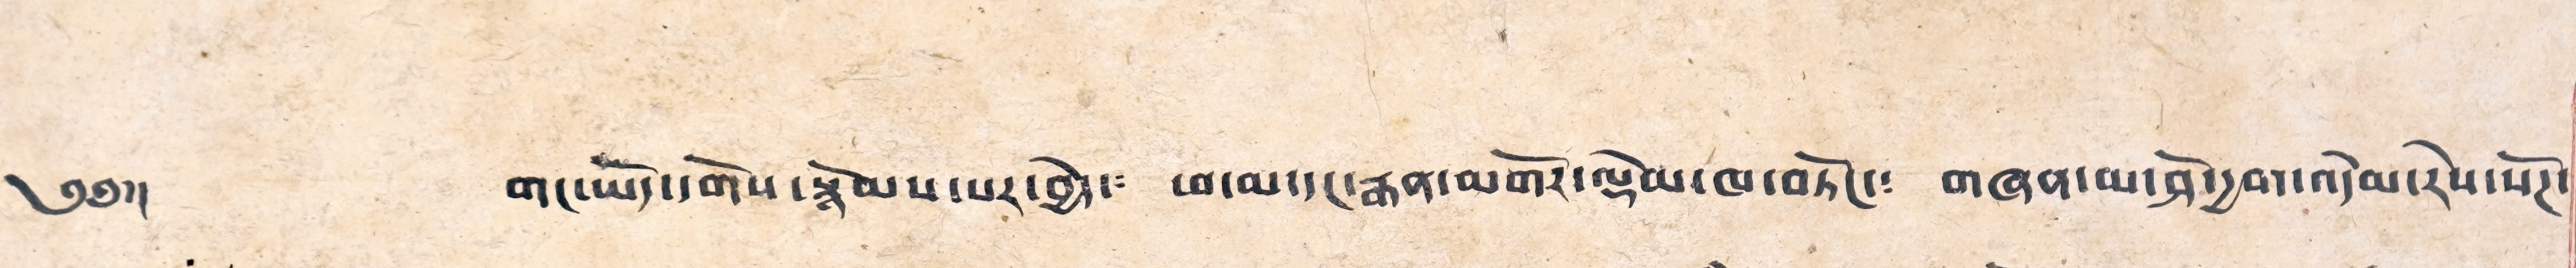༄༅།། གང་ཡོད་དགོས་སྙོམས་པར་བྱེད་༴ ཕ་མ་དང་རྒན་མགོར་ལྡེམ་ཁ་བཏོང་༴ གཞན་མ་ཤོ་དྱག་འདེབ་རེས་སོཊ་
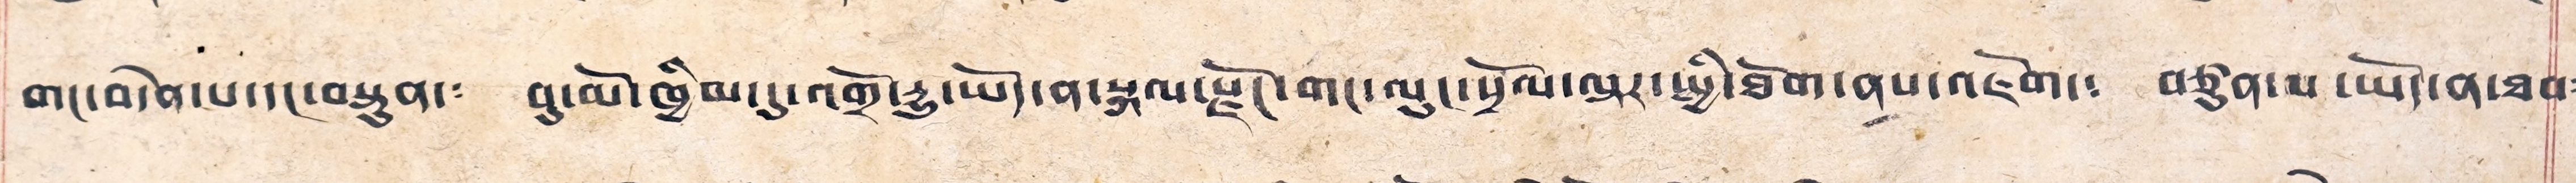གང་བདེན་པ་དང་བསྟུན་༴ བུ་མོ་ཁྱིམ་དུ་འགྲོ་རྒྱུ་ཡོད་ན་སྐལ་རྫོང་གང་ལུང་སྲོལ་ལྟར་སྤྱི་ཐོག་ནས་འཇོག་༴ བཙུན་པ་ཡོད་ན་ཐབ༴
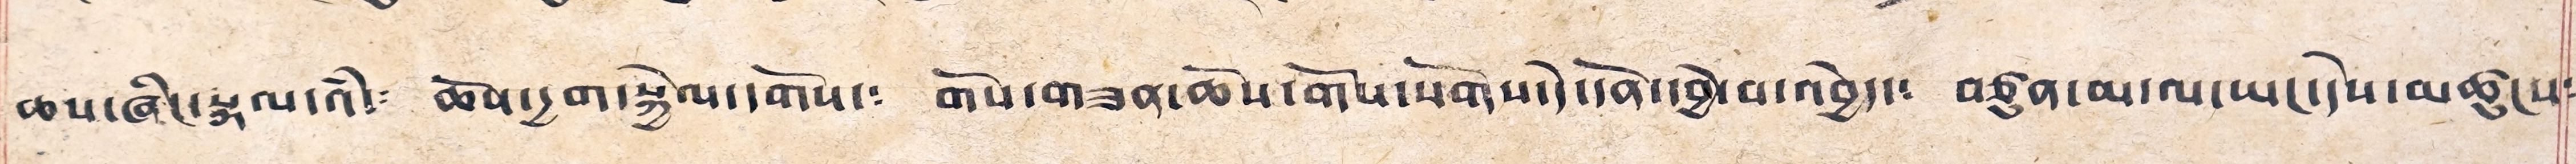ཆས་ཞིང་སྐལ་འཾ་༴ ཆོས་དྱག་སྐྱེལ་དགོས་༴ གོས་གཟན་ཆོས་གོས་སོགས་དེ་དོན་དབྱེ་བ་འབྱེད་༴ བཙུན་མ་ལ་ཡང་དེས་མཚུངས༴
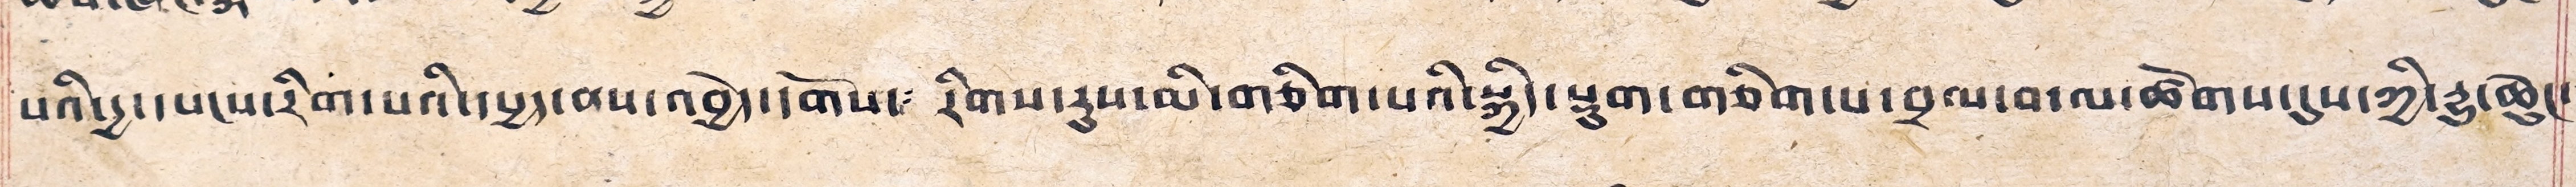པའི་དྱ་དཔངས་རིག་པའི་དཔྱད་ནས་འབྱེད་དགོས་༴ རིགས་རུས་མི་གཅིག་པའི་སྐྱིད་སྡུག་གཅིག་པ་བྲལ་བ་ལ་ཚེགས་དུས་ཀྱི་རྒྱུ་ཆེུང་༴
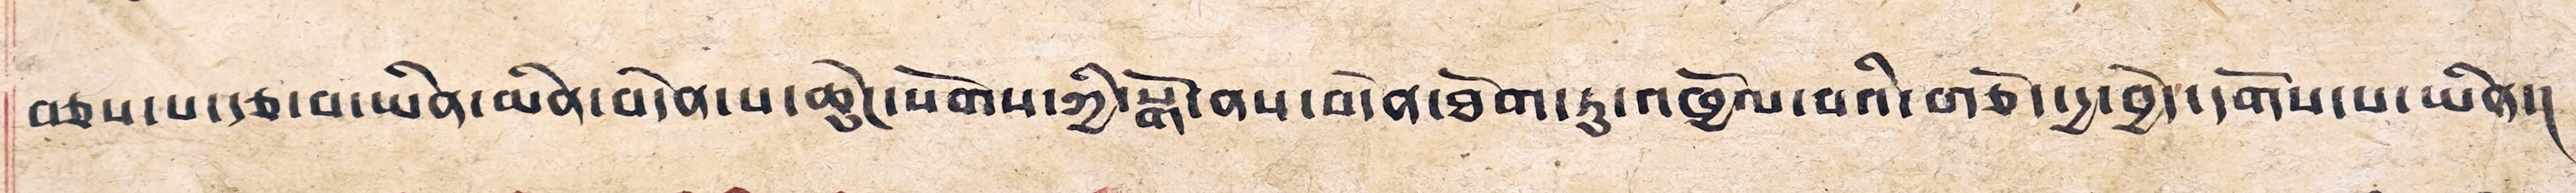བཅས་པ་རྩ་བ་ཡིན་མིན་བདེན་པ་ཆེ་ཆུང་སོགས་ཀྱི་སྒོ་ནས་བདེན་ཐོག་ཏུ་འཁྱོལ་པའི་གཅོད་དྱ་བྱེད་དགོས་པ་ཡིན།།
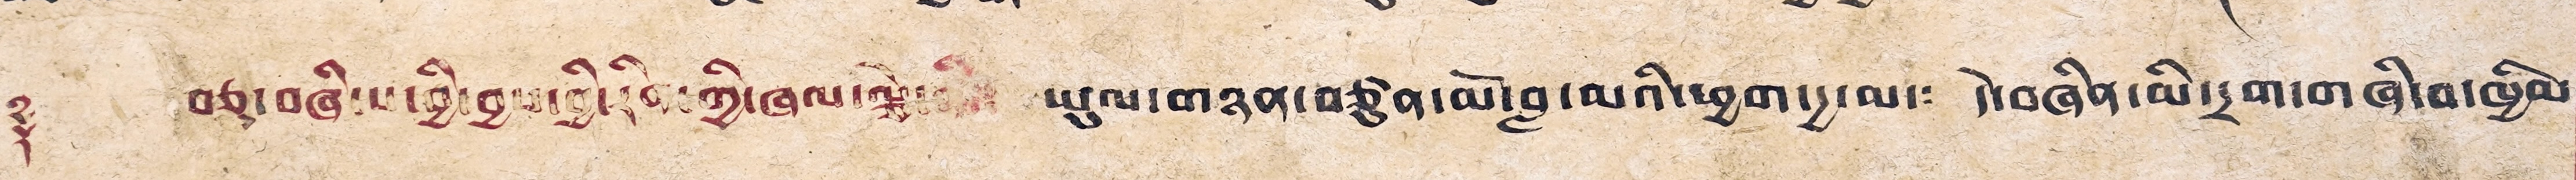༈ བཅུ་བཞི་པ་བྱི་བྱས་བྱི་རིན་ཀྱི་ཞལ་ལྕེ་ནི་༴ ཡུལ་གཉན་བཙུན་མོ་བླ་མའི་ཕྱག་དྱ་མ་༴ དེ་བཞིན་མི་དྲག་གཞི་བ་ཁྱིམ་
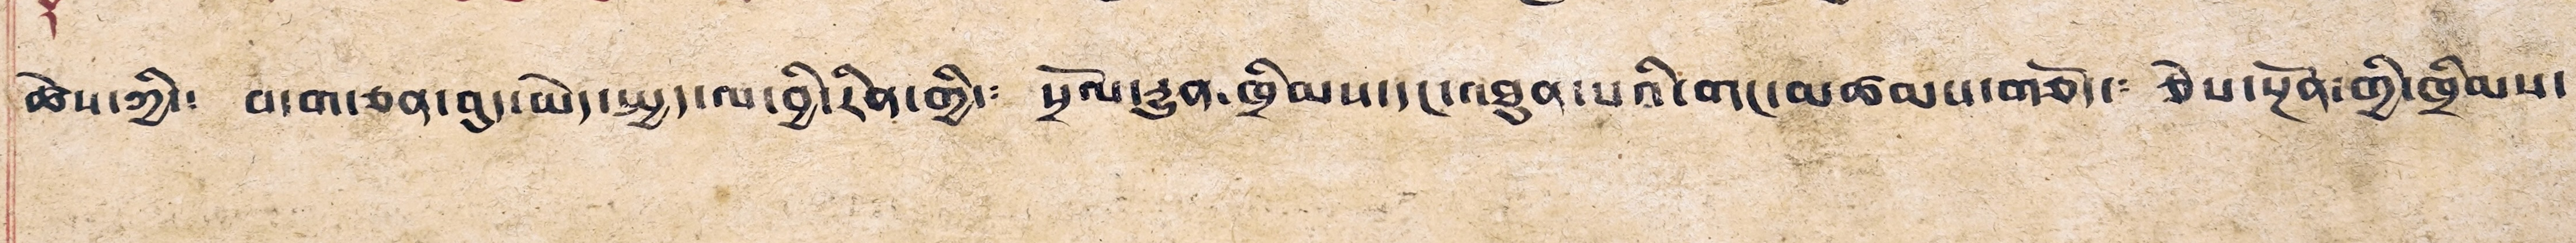ཚེས་ཀྱི་༴ བདག་ཅན་བུད་མེད་སྤྱད་ལ་བྱི་རིན་གྱི་༴ སྲོལ་རྒྱུན་ཁྲིམས་དང་འཐུན་པའི་གང་མཚམས་གཅོད་༴ ཅེས་སྔོན་གྱི་ཁྲིམས་
